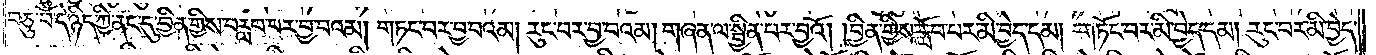བཅུ་པོ་དེ་ཉིད་ཀྱི་ནང་དུ་བྱིན་གྱིས་བརླབ་པར་བྱ་བའམ། གཏང་བར་བྱ་བའམ། རུང་བར་བྱ་བའམ། གཞན་ལ་སྦྱིན་པར་བྱའོ། །བྱིན་གྱིས་རློབ་པར་མི་བྱེད་དམ། གཏོང་བར་མི་བྱེད་དམ། རུང་བར་མི་བྱེད་
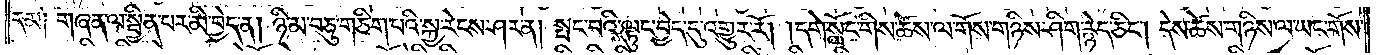དམ། གཞན་ལ་སྦྱིན་པར་མི་བྱེད་ན། ཉི་མ་བཅུ་གཅིག་པའི་སྐྱ་རེངས་ཤར་ན། སྤང་བའི་ལྟུང་བྱེད་དུ་འགྱུར་རོ། །དགེ་སློང་གིས་ཚེས་ལ་གོས་གཉིས་ཤིག་རྙེད་ཅིང༌། དེས་ཚེས་གཉིས་ལ་ཡང་གོས་
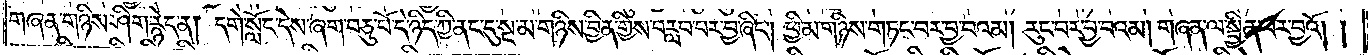གཞན་གཉིས་ཤིག་རྙེད་ན། དགེ་སློང་དེས་ཞག་བཅུ་པོ་དེ་ཉིད་ཀྱི་ནང་དུ་སྔ་མ་གཉིས་བྱིན་གྱིས་བརླབ་པར་བྱ་ཞིང༌། ཕྱི་མ་གཉིས་གཏང་བར་བྱ་བའམ། རུང་བར་བྱ་བའམ། གཞན་ལ་སྦྱིན་པར་བྱའོ། །
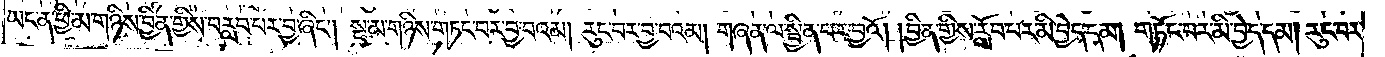ཡང་ན་ཕྱི་མ་གཉིས་བྱིན་གྱིས་བརླབ་པར་བྱ་ཞིང༌། སྔ་མ་གཉིས་གཏང་བར་བྱ་བའམ། རུང་བར་བྱ་བའམ། གཞན་ལ་སྦྱིན་པར་བྱའོ། །བྱིན་གྱིས་རློབ་པར་མི་བྱེད་དམ། གཏོང་བར་མི་བྱེད་དམ། རུང་བ་
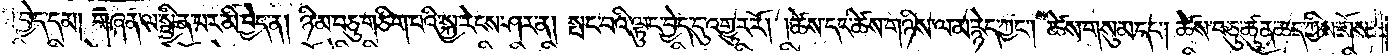མི་བྱེད་དམ། གཞན་ལ་སྦྱིན་པར་མི་བྱེད་ན། ཉི་མ་བཅུ་གཅིག་པའི་སྐྱ་རེངས་ཤར་ན། སྤང་བའི་ལྟུང་བྱེད་དུ་འགྱུར་རོ། །ཚེས་དང་ཚེས་གཉིས་ལ་མ་རྙེད་ཀྱང༌། ཚེས་གསུམ་དང༌། ཚེས་བཅུ་ཚུན་ཆད་ཀྱིས་གོས་
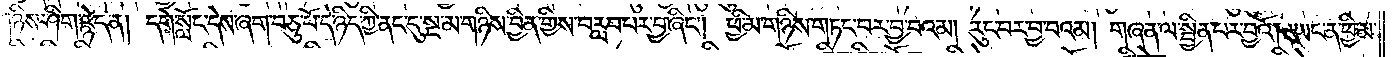གཉིས་ཤིག་རྙེད་ན། དགེ་སློང་དེས་ཞག་བཅུ་པོ་དེ་ཉིད་ཀྱི་ནང་དུ་སྔ་མ་གཉིས་བྱིན་གྱིས་བརླབ་པར་བྱ་ཞིང༌། ཕྱི་མ་གཉིས་གཏང་བར་བྱ་བའམ། རུང་བར་བྱ་བའམ། གཞན་ལ་སྦྱིན་པར་བྱའོ། །ཡང་ན་ཕྱི་མ་
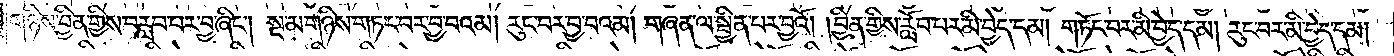གཉིས་བྱིན་གྱིས་བརླབ་པར་བྱ་ཞིང༌། སྔ་མ་གཉིས་གཏང་བར་བྱ་བའམ། རུང་བར་བྱ་བའམ། གཞན་ལ་སྦྱིན་པར་བྱའོ། །བྱིན་གྱིས་རློབ་པར་མི་བྱེད་དམ། གཏོང་བར་མི་བྱེད་དམ། རུང་བར་མི་བྱེད་དམ།
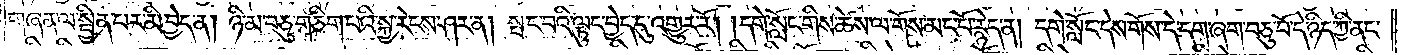གཞན་ལ་སྦྱིན་པར་མི་བྱེད་ན། ཉི་མ་བཅུ་གཅིག་པའི་སྐྱ་རེངས་ཤར་ན། སྤང་བའི་ལྟུང་བྱེད་དུ་འགྱུར་རོ། །དགེ་སློང་གིས་ཚེས་ལ་གོས་མང་པོ་རྙེད་ན། དགེ་སློང་དེས་གོས་དེ་དག་ཞག་བཅུ་པོ་དེ་ཉིད་ཀྱི་ནང་
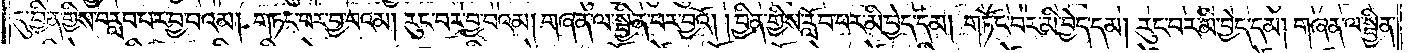དུ་བྱིན་གྱིས་བརླབ་པར་བྱ་བའམ། གཏང་བར་བྱ་བའམ། རུང་བར་བྱ་བའམ། གཞན་ལ་སྦྱིན་པར་བྱའོ། །བྱིན་གྱིས་རློབ་པར་མི་བྱེད་དམ། གཏོང་བར་མི་བྱེད་དམ། རུང་བར་མི་བྱེད་དམ། གཞན་ལ་སྦྱིན་
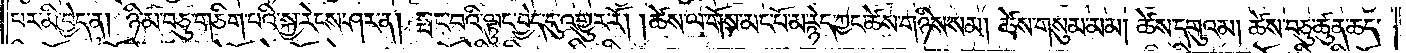པར་མི་བྱེད་ན། ཉི་མ་བཅུ་གཅིག་པའི་སྐྱ་རེངས་ཤར་ན། སྤང་བའི་ལྟུང་བྱེད་དུ་འགྱུར་རོ། །ཚེས་ལ་གོས་མང་པོ་མ་རྙེད་ཀྱང་ཚེས་གཉིས་སམ། ཚེས་གསུམ་མམ། ཚེས་དགུའམ། ཚེས་བཅུ་ཚུན་ཆད་
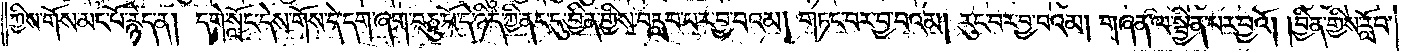ཀྱིས་གོས་མང་པོ་རྙེད་ན། དགེ་སློང་དེས་གོས་དེ་དག་ཞག་བཅུ་པོ་དེ་ཉིད་ཀྱི་ནང་དུ་བྱིན་གྱིས་བརླབ་པར་བྱ་བའམ། གཏང་བར་བྱ་བའམ། རུང་བར་བྱ་བའམ། གཞན་ལ་སྦྱིན་པར་བྱའོ། །བྱིན་གྱིས་རློབ་
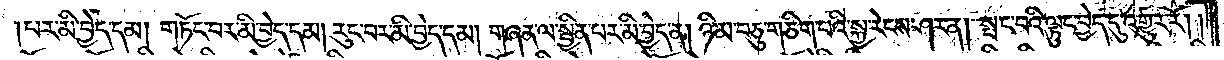པར་མི་བྱེད་དམ། གཏོང་བར་མི་བྱེད་དམ། རུང་བར་མི་བྱེད་དམ། གཞན་ལ་སྦྱིན་པར་མི་བྱེད་ན། ཉི་མ་བཅུ་གཅིག་པའི་སྐྱ་རེངས་ཤར་ན། སྤང་བའི་ལྟུང་བྱེད་དུ་འགྱུར་རོ། །
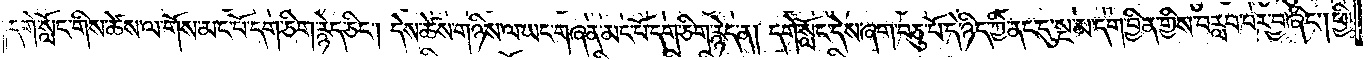དགེ་སློང་གིས་ཚེས་ལ་གོས་མང་པོ་དག་ཅིག་རྙེད་ཅིང༌། དེས་ཚེས་གཉིས་ལ་ཡང་གཞན་མང་པོ་དག་ཅིག་རྙེད་ན། དགེ་སློང་དེས་ཞག་བཅུ་པོ་དེ་ཉིད་ཀྱི་ནང་དུ་སྔ་མ་དག་བྱིན་གྱིས་བརླབ་པར་བྱ་ཞིང༌། ཕྱི་
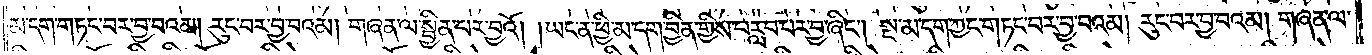མ་དག་གཏང་བར་བྱ་བའམ། རུང་བར་བྱ་བའམ། གཞན་ལ་སྦྱིན་པར་བྱའོ། །ཡང་ན་ཕྱི་མ་དག་བྱིན་གྱིས་བརླབ་པར་བྱ་ཞིང༌། སྔ་མ་དག་ཀྱང་གཏང་བར་བྱ་བའམ། རུང་བར་བྱ་བའམ། གཞན་ལ་
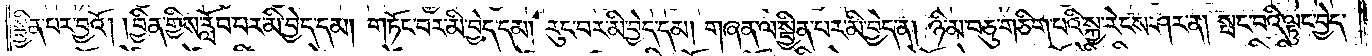སྦྱིན་པར་བྱའོ། །བྱིན་གྱིས་རློབ་པར་མི་བྱེད་དམ། གཏོང་བར་མི་བྱེད་དམ། རུང་བར་མི་བྱེད་དམ། གཞན་ལ་སྦྱིན་པར་མི་བྱེད་ན། ཉི་མ་བཅུ་གཅིག་པའི་སྐྱ་རེངས་ཤར་ན། སྤང་བའི་ལྟུང་བྱེད་
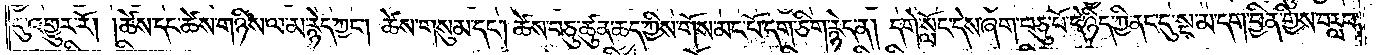དུ་འགྱུར་རོ། །ཚེས་དང་ཚེས་གཉིས་ལ་མ་རྙེད་ཀྱང༌། ཚེས་གསུམ་དང༌། ཚེས་བཅུ་ཚུན་ཆད་ཀྱིས་གོས་མང་པོ་དག་ཅིག་རྙེད་ན། དགེ་སློང་དེས་ཞག་བཅུ་པོ་དེ་ཉིད་ཀྱི་ནང་དུ་སྔ་མ་དག་བྱིན་གྱིས་བརླབ་
